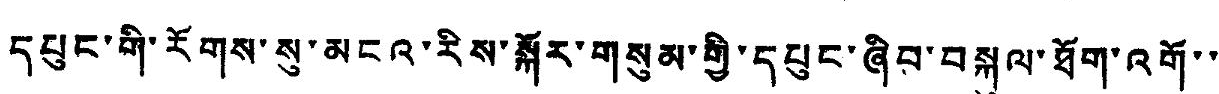དཔུང་གི་རོགས་སུ་མངའ་རིས་སྐོར་གསུམ་གྱི་དཔུང་ཞིབ་བསྐུལ་ཐོག་འགོ་་
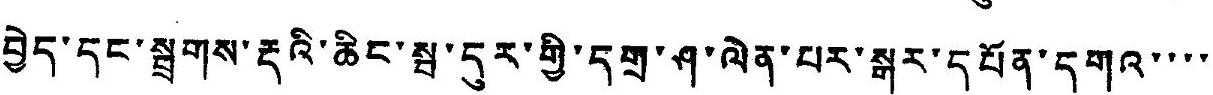བྱེད་དང་སྦྲགས་རྡའི་ཆིང་སྦ་དུར་གྱི་དགྲ་ཤ་ལེན་པར་སྒར་དཔོན་དགའ་་་་
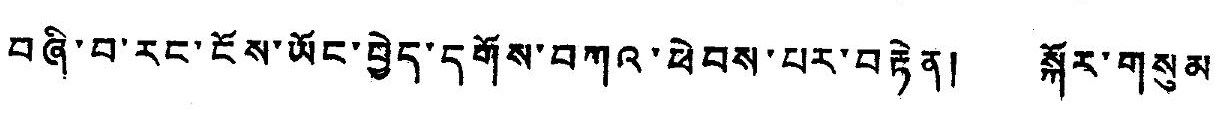བཞི་བ་རང་ངོས་ཡོང་བྱེད་དགོས་བཀའ་ཕེབས་པར་བརྟེན། སྐོར་གསུམ་
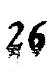26
